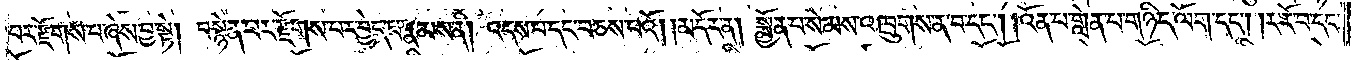པར་རྫོགས་པ་ཞེས་བྱ་སྟེ། བསྙེན་པར་རྫོགས་པར་བྱེད་པ་རྣམས་ནི། འདས་པ་དང་བཅས་པའོ། །མདོར་ན། སྨྱོན་པ་སེམས་འཁྲུགས་ན་བ་དང༌། །འོན་པ་གླེན་པ་གཉིད་ལོག་དང༌། །ར་རོ་བ་དང་
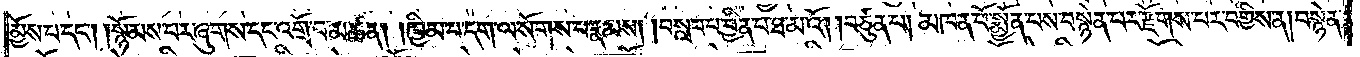མྱོས་པ་དང༌། །སྙོམས་པར་ཞུགས་དང་འགྲོ་བ་མཚན། །ཁྱིམ་བདག་ལ་སོགས་པ་རྣམས། །བསླབ་པ་བྱིན་པ་ཐ་མའོ། །བཙུན་པ། མཁན་པོ་སྨྱོན་པས་བསྙེན་པར་རྫོགས་པར་བགྱིས་ན། བསྙེན་
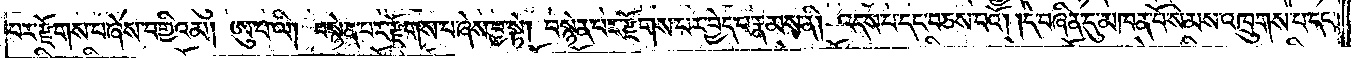པར་རྫོགས་པ་ཞེས་བགྱིའམ། ཨུ་པ་ལི། བསྙེན་པར་རྫོགས་པ་ཞེས་བྱ་སྟེ། བསྙེན་པར་རྫོགས་པར་བྱེད་པ་རྣམས་ནི། འདས་པ་དང་བཅས་པའོ། །དེ་བཞིན་དུ་མཁན་པོ་སེམས་འཁྲུགས་པ་དང༌།
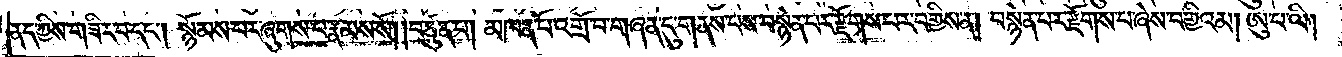ནད་ཀྱིས་གཟིར་བ་དང༌། སྙོམས་པར་ཞུགས་པ་རྣམས་སོ། །བཙུན་པ། མཁན་པོ་འགྲོ་བ་གཞན་དུ་གནས་པས་བསྙེན་པར་རྫོགས་པར་བགྱིས་ན། བསྙེན་པར་རྫོགས་པ་ཞེས་བགྱིའམ། ཨུ་པ་ལི།
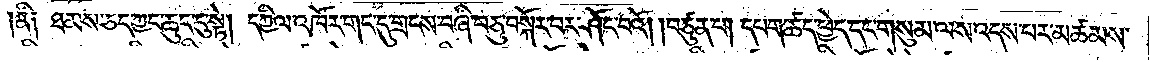།ནི། ཐམས་ཅད་ཀྱང་ཆུང་ངུ་སྟེ། དཀྱིལ་འཁོར་གང་དུ་གྲངས་བཞི་བཅུ་བསྐོར་བར་ཤོང་བའོ། །བཙུན་པ། དཔག་ཚད་ཕྱེད་དང་གསུམ་ལས་འདས་པར་མཚམས་
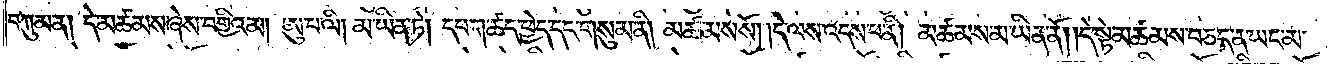བཀུམ་ན། དེ་མཚམས་ཞེས་བགྱིའམ། ཨུ་པ་ལི། མ་ཡིན་ཏེ། དཔག་ཚད་ཕྱེད་དང་གསུམ་ནི། མཚམས་སོ། །དེ་ལས་འདས་པ་ནི། མཚམས་མ་ཡིན་ནོ། །དེ་སྟེ་མཚམས་བཅད་ན་ཡང་མ་
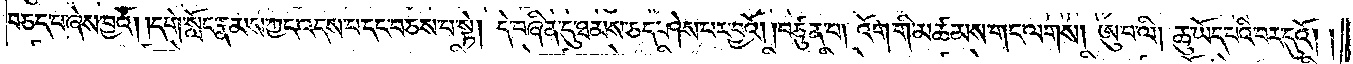བཅད་པ་ཞེས་བྱའོ། །དགེ་སློང་རྣམས་ཀྱང་འདས་བ་དང་བཅས་པ་སྟེ། དེ་བཞིན་དུ་ཐམས་ཅད་ཤེས་པར་བྱའོ། །བཙུན་པ། འོག་གི་མཚམས་གང་ལགས། ཨུ་པ་ལི། ཆུ་ཡོད་པའི་བར་དུའོ། །
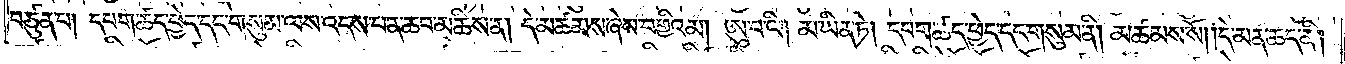བཙུན་པ། དཔག་ཚད་ཕྱེད་དང་གསུམ་ལས་འདས་པ་ན་ཆབ་མཆིས་ན། དེ་མཚམས་ཞེས་བགྱིའམ། ཨུ་པ་ལི། མ་ཡིན་ཏེ། དཔག་ཚད་ཕྱེད་དང་གསུམ་ནི། མཚམས་སོ། །དེ་མན་ཆད་ནི།
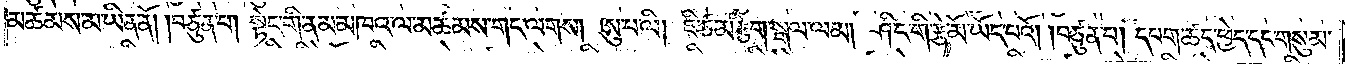མཚམས་མ་ཡིན་ནོ། །བཙུན་པ། སྟེང་གི་ནམ་མཁའ་ལ་མཚམས་གང་ལགས། ཨུ་པ་ལི། ཇི་ཙམ་རྩིག་སྒལ་ལམ། ཤིང་གི་རྩེ་མོ་ཡོད་པའོ། །བཙུན་པ། དཔག་ཚད་ཕྱེད་དང་གསུམ་
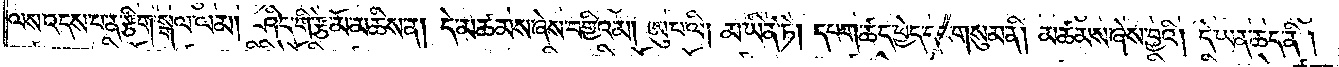ལས་འདས་པ་ན་རྩིག་སྒལ་ལམ། ཤིང་གི་རྩེ་མོ་མཆིས་ན། དེ་མཚམས་ཞེས་བགྱིའམ། ཨུ་པ་ལི། མ་ཡིན་ཏེ། དཔག་ཚད་ཕྱེད་དང་གསུམ་ནི། མཚམས་ཞེས་བྱའི། དེ་ཡན་ཆད་ནི།
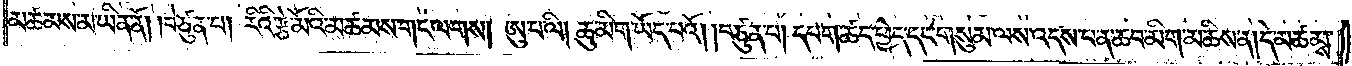མཚམས་མ་ཡིན་ནོ། །བཙུན་པ། རིའི་རྩེ་མོའི་མཚམས་གང་ལགས། ཨུ་པ་ལི། ཆུ་མིག་ཡོད་པའོ། །བཙུན་པ། དཔག་ཚད་ཕྱེད་དང་གསུམ་ལས་འདས་པ་ན་ཆབ་མིག་མཆིས་ན། དེ་མཚམས་
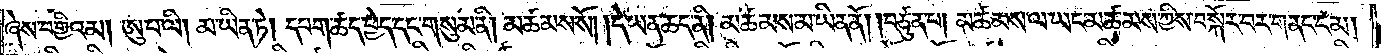ཞེས་བགྱིའམ། ཨུ་པ་ལི། མ་ཡིན་ཏེ། དཔག་ཚད་ཕྱེད་དང་གསུམ་ནི། མཚམས་སོ། །དེ་ཡན་ཆད་ནི། མཚམས་མ་ཡིན་ནོ། །བཙུན་པ། མཚམས་ལ་ཡང་མཚམས་ཀྱིས་བསྐོར་བར་གནང་ངམ།
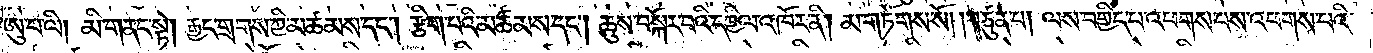ཨུ་པ་ལི། མི་གནང་སྟེ། རྒྱང་གྲགས་ཀྱི་མཚམས་དང༌། རྩིག་པའི་མཚམས་དང༌། ཆུས་བསྐོར་བའི་དཀྱིལ་འཁོར་ནི། མ་གཏོགས་སོ། །བཙུན་པ། ལས་བགྱིད་པ་འཕགས་པས་འཕགས་པའི་
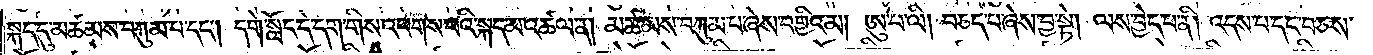སྐད་དུ་མཚམས་བཀུམ་པ་དང༌། དགེ་སློང་དེ་དག་གིས་འཕགས་པའི་སྐད་མ་འཚལ་ན། མཚམས་བཀུམ་པ་ཞེས་བགྱིའམ། ཨུ་པ་ལི། བཅད་པ་ཞེས་བྱ་སྟེ། ལས་བྱེད་པ་ནི། འདས་པ་དང་བཅས་
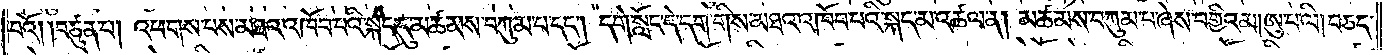བའོ། །བཙུན་པ། འཕགས་པས་མཐའ་འཁོབ་པའི་སྐད་དུ་མཚམས་བཀུམ་པ་དང༌། དགེ་སློང་དེ་དག་གིས་མཐའ་འཁོབ་པའི་སྐད་མ་འཚལ་ན། མཚམས་བཀུམ་པ་ཞེས་བགྱིའམ། ཨུ་པ་ལི། བཅད་
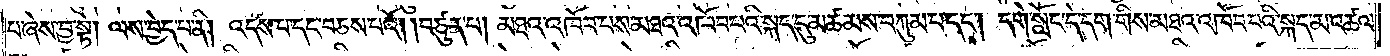པ་ཞེས་བྱ་སྟེ། ལས་བྱེད་པ་ནི། འདས་པ་དང་བཅས་པའོ། །བཙུན་པ། མཐའ་འཁོབ་པས་མཐའ་འཁོབ་པའི་སྐད་དུ་མཚམས་བཀུམ་པ་དང༌། དགེ་སློང་དེ་དག་གིས་མཐའ་འཁོབ་པའི་སྐད་མ་འཚལ་
